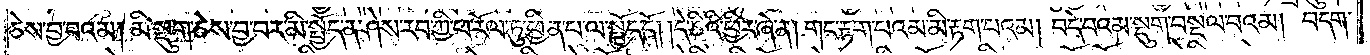ཅེས་བྱ་བའམ། མི་སྡུག་ཅེས་བྱ་བར་མི་སྤྱོད་ན་ཤེས་རབ་ཀྱི་ཕ་རོལ་ཏུ་ཕྱིན་པ་ལ་སྤྱོད་དོ། །དེ་ཅིའི་ཕྱིར་ཞེ་ན། གང་རྟག་པའམ་མི་རྟག་པའམ། བདེ་བའམ་སྡུག་བསྔལ་བའམ། བདག་
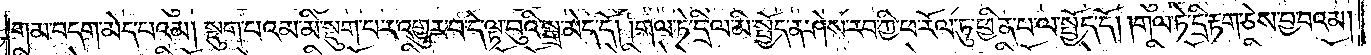གམ་བདག་མེད་པའམ། སྡུག་པའམ་མི་སྡུག་པར་འགྱུར་བ་དེ་ལྟ་བུའི་སྒྲ་མེད་དོ། །གལ་ཏེ་དྲི་ལ་མི་སྤྱོད་ན་ཤེས་རབ་ཀྱི་ཕ་རོལ་ཏུ་ཕྱིན་པ་ལ་སྤྱོད་དོ། །གལ་ཏེ་དྲི་རྟག་ཅེས་བྱ་བའམ།
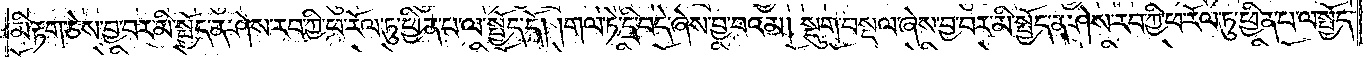མི་རྟག་ཅེས་བྱ་བར་མི་སྤྱོད་ན་ཤེས་རབ་ཀྱི་ཕ་རོལ་ཏུ་ཕྱིན་པ་ལ་སྤྱོད་དོ། །གལ་ཏེ་དྲི་བདེ་ཞེས་བྱ་བའམ། སྡུག་བསྔལ་ཞེས་བྱ་བར་མི་སྤྱོད་ན་ཤེས་རབ་ཀྱི་ཕ་རོལ་ཏུ་ཕྱིན་པ་ལ་སྤྱོད་
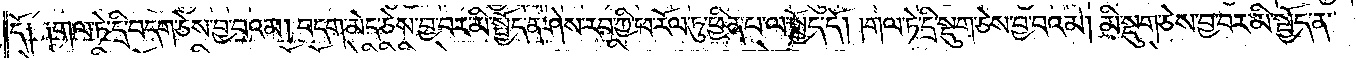དོ༑ ༑གལ་ཏེ་དྲི་བདག་ཅེས་བྱ་བའམ། བདག་མེད་ཅེས་བྱ་བར་མི་སྤྱོད་ན་ཤེས་རབ་ཀྱི་ཕ་རོལ་ཏུ་ཕྱིན་པ་ལ་སྤྱོད་དོ། །གལ་ཏེ་དྲི་སྡུག་ཅེས་བྱ་བའམ། མི་སྡུག་ཅེས་བྱ་བར་མི་སྤྱོད་ན་
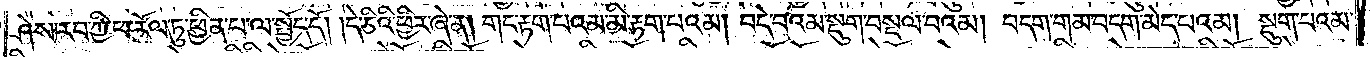ཤེས་རབ་ཀྱི་ཕ་རོལ་ཏུ་ཕྱིན་པ་ལ་སྤྱོད་དོ། །དེ་ཅིའི་ཕྱིར་ཞེ་ན། གང་རྟག་པའམ་མི་རྟག་པའམ། བདེ་བའམ་སྡུག་བསྔལ་བའམ། བདག་གམ་བདག་མེད་པའམ། སྡུག་པའམ་
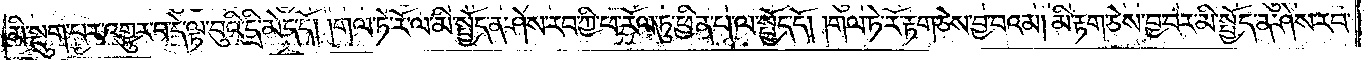མི་སྡུག་པར་འགྱུར་བ་དེ་ལྟ་བུའི་དྲི་མེད་དོ། །གལ་ཏེ་རོ་ལ་མི་སྤྱོད་ན་ཤེས་རབ་ཀྱི་ཕ་རོལ་ཏུ་ཕྱིན་པ་ལ་སྤྱོད་དོ། །གལ་ཏེ་རོ་རྟག་ཅེས་བྱ་བའམ། མི་རྟག་ཅེས་བྱ་བར་མི་སྤྱོད་ན་ཤེས་རབ་
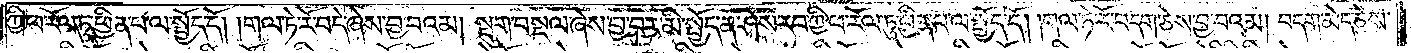ཀྱི་ཕ་རོལ་ཏུ་ཕྱིན་པ་ལ་སྤྱོད་དོ། །གལ་ཏེ་རོ་བདེ་ཞེས་བྱ་བའམ། སྡུག་བསྔལ་ཞེས་བྱ་བར་མི་སྤྱོད་ན་ཤེས་རབ་ཀྱི་ཕ་རོལ་ཏུ་ཕྱིན་པ་ལ་སྤྱོད་དོ། །གལ་ཏེ་རོ་བདག་ཅེས་བྱ་བའམ། བདག་མེད་ཅེས་
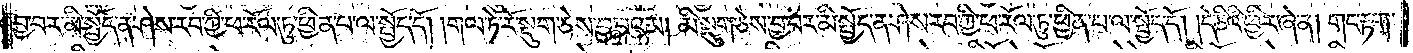བྱ་བར་མི་སྤྱོད་ན་ཤེས་རབ་ཀྱི་ཕ་རོལ་ཏུ་ཕྱིན་པ་ལ་སྤྱོད་དོ། །གལ་ཏེ་རོ་སྡུག་ཅེས་བྱ་བའམ། མི་སྡུག་ཅེས་བྱ་བར་མི་སྤྱོད་ན་ཤེས་རབ་ཀྱི་ཕ་རོལ་ཏུ་ཕྱིན་པ་ལ་སྤྱོད་དོ། །དེ་ཅིའི་ཕྱིར་ཞེ་ན། གང་རྟག་
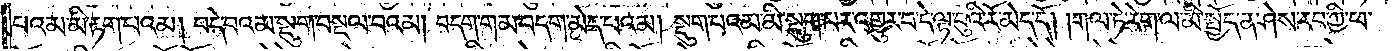པའམ་མི་རྟག་པའམ། བདེ་བའམ་སྡུག་བསྔལ་བའམ། བདག་གམ་བདག་མེད་པའམ། སྡུག་པའམ་མི་སྡུག་པར་འགྱུར་བ་དེ་ལྟ་བུའི་རོ་མེད་དོ། །གལ་ཏེ་རེག་ལ་མི་སྤྱོད་ན་ཤེས་རབ་ཀྱི་ཕ་
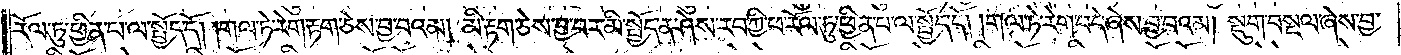རོལ་ཏུ་ཕྱིན་པ་ལ་སྤྱོད་དོ། །གལ་ཏེ་རེག་རྟག་ཅེས་བྱ་བའམ། མི་རྟག་ཅེས་བྱ་བར་མི་སྤྱོད་ན་ཤེས་རབ་ཀྱི་ཕ་རོལ་ཏུ་ཕྱིན་པ་ལ་སྤྱོད་དོ། །གལ་ཏེ་རེག་བདེ་ཞེས་བྱ་བའམ། སྡུག་བསྔལ་ཞེས་བྱ་
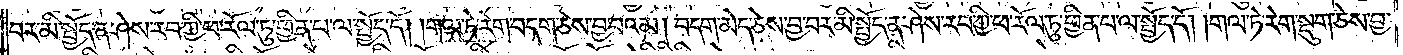བར་མི་སྤྱོད་ན་ཤེས་རབ་ཀྱི་ཕ་རོལ་ཏུ་ཕྱིན་པ་ལ་སྤྱོད་དོ། །གལ་ཏེ་རེག་བདག་ཅེས་བྱ་བའམ། བདག་མེད་ཅེས་བྱ་བར་མི་སྤྱོད་ན་ཤེས་རབ་ཀྱི་ཕ་རོལ་ཏུ་ཕྱིན་པ་ལ་སྤྱོད་དོ། །གལ་ཏེ་རེག་སྡུག་ཅེས་བྱ་
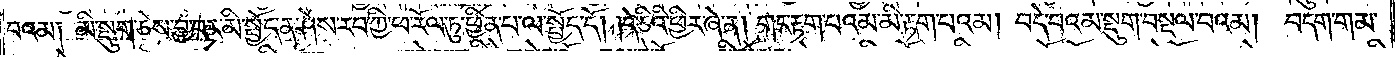བའམ། མི་སྡུག་ཅེས་བྱ་བར་མི་སྤྱོད་ན་ཤེས་རབ་ཀྱི་ཕ་རོལ་ཏུ་ཕྱིན་པ་ལ་སྤྱོད་དོ། །དེ་ཅིའི་ཕྱིར་ཞེ་ན། གང་རྟག་པའམ་མི་རྟག་པའམ། བདེ་བའམ་སྡུག་བསྔལ་བའམ། བདག་གམ་
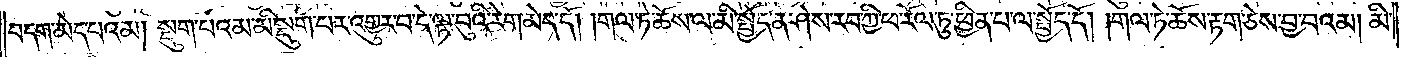བདག་མེད་པའམ། སྡུག་པའམ་མི་སྡུག་པར་འགྱུར་བ་དེ་ལྟ་བུའི་རེག་མེད་དོ། །གལ་ཏེ་ཆོས་ལ་མི་སྤྱོད་ན་ཤེས་རབ་ཀྱི་ཕ་རོལ་ཏུ་ཕྱིན་པ་ལ་སྤྱོད་དོ། །གལ་ཏེ་ཆོས་རྟག་ཅེས་བྱ་བའམ། མི་
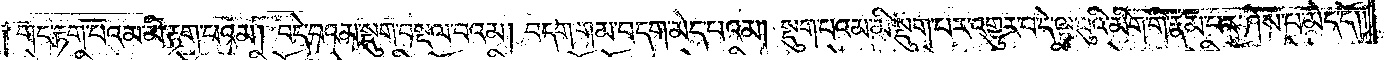གང་རྟག་པའམ་མི་རྟག་པའམ། བདེ་བའམ་སྡུག་བསྔལ་བའམ། བདག་གམ་བདག་མེད་པའམ། སྡུག་པའམ་མི་སྡུག་པར་འགྱུར་བ་དེ་ལྟ་བུའི་མིག་གི་རྣམ་པར་ཤེས་པ་མེད་དོ། །
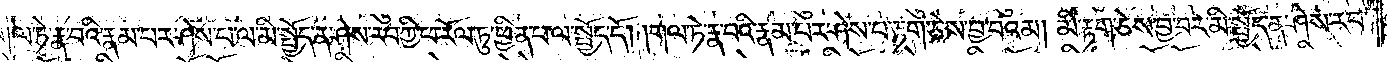གལ་ཏེ་རྣམ་བའི་རྣམ་པར་ཤེས་པ་ལ་མི་སྤྱོད་ན་ཤེས་རབ་ཀྱི་ཕ་རོལ་ཏུ་ཕྱིན་པ་ལ་སྤྱོད་དོ། །གལ་ཏེ་རྣ་བའི་རྣམ་པར་ཤེས་པ་རྟག་ཅེས་བྱ་བའམ། མི་རྟག་ཅེས་བྱ་བར་མི་སྤྱོད་ན་ཤེས་རབ་
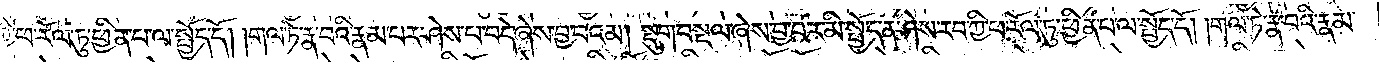ཀྱི་ཕ་རོལ་ཏུ་ཕྱིན་པ་ལ་སྤྱོད་དོ། །གལ་ཏེ་རྣ་བའི་རྣམ་པར་ཤེས་པ་བདེ་ཞེས་བྱ་བའམ། སྡུག་བསྔལ་ཞེས་བྱ་བར་མི་སྤྱོད་ན་ཤེས་རབ་ཀྱི་ཕ་རོལ་ཏུ་ཕྱིན་པ་ལ་སྤྱོད་དོ། །གལ་ཏེ་རྣ་བའི་རྣམ་
